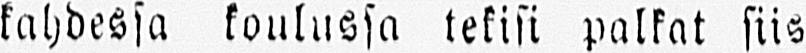kahdessa koulussa tekisi palkat siis
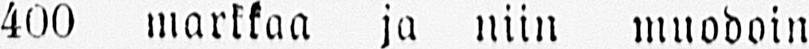400 markkaa ja niin muodoin
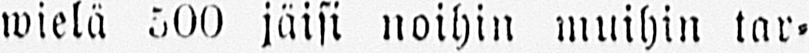wielä 500 jäisi noihin muihin tar-
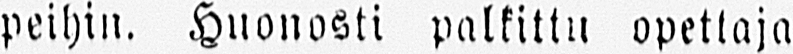peihin. Huonosti palkittu opettaja
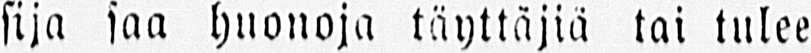sija saa huonoja täyttäjiä tai tulee
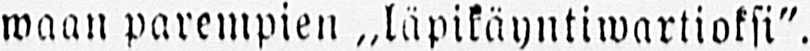waan parempien „läpikäyntiwartioksi".
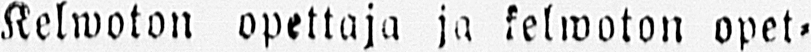Kelwoton opettaja ja kelwoton opet-
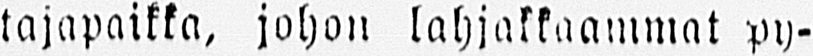tajapaikka, johon lahjakkaammat py-
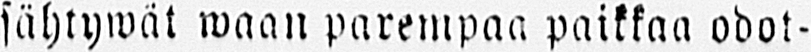sähtywät waan parempaa paikkaa odot-
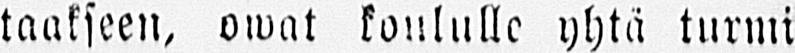taakseen, owat koululle yhtä turmi-
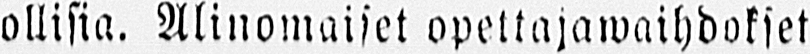ollisia. Alinomaiset opettajawaihdokset
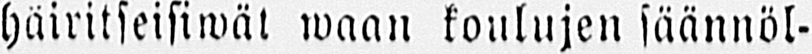häiritseisiwät waan koulujen säännöl-
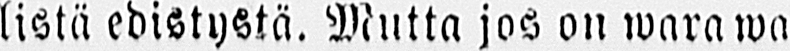listä edistystä. Mutta jos on wara wa
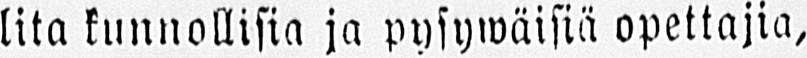lika kunnollisia ja pysywäisiä opettajia,
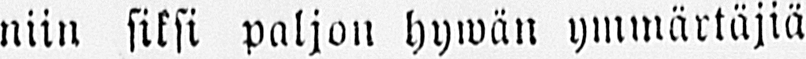niin siksi paljon hywän ymmärtäjiä
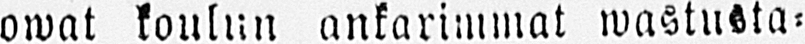owat koulun ankarimmat wastusta-
